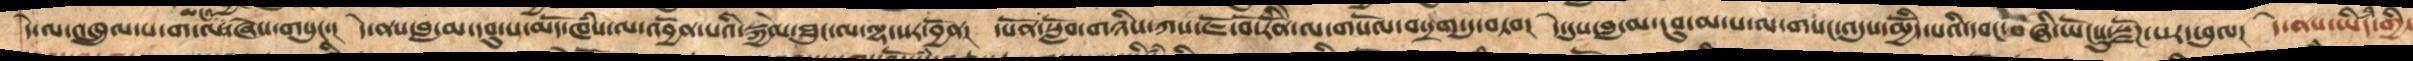དེ་ལ་འཁྲུལ་པ་ག་ལ་ཞེས་གསུང་། དེ་ནས་བླ་མ་དབུ་པ་མདོ་ཁཾས་ལ་འབྱོན་པའི་སྐྱེལ་ཐུང་ལ་ལྷ་སར་བྱོན། དཔོན་སློབ་གཉིས་ཀས་ཇོ་བོ་རིོནེ་ལ་གསོལ་བ་དྲག་དུ་བཏབ། དེ་དུས་བླ་མ་དབུ་མ་པ་ལ་གསང་འདུས་ཆྱེིདཔའི་དབང་བཞི་ཡོངསུ་སྫོཌ་པར་ཕུལ། དེ་ནས་ཡིདཾ་གྱི་
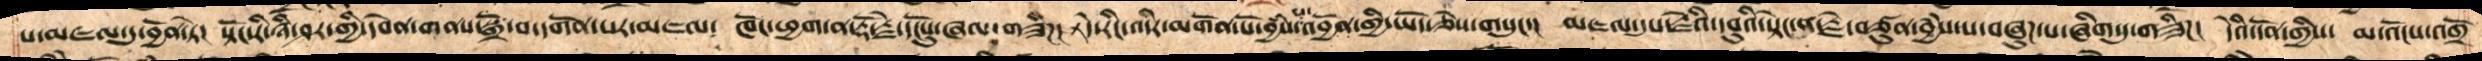པ་མཇལ་དུ་བྱོན་ཏེ། སྟོང་རི་ཉི་ཤར་གྱི་དབེན་གནས་སྒྲོ་བ་དགོན་པར་མཇལ། ཁོང་ཕྱག་ན་རྡོ་རྗེ་དངོསུ་ཞལ་གཟིཌ། དེ་རིང་འདིར་མགོན་པོ་བྱཾས་པ་འབྱོན་གྱི་ཡོད་ཅེས་གསུང་། མཇལ་དུས་རྗེའི་དབུའི་སྟེང་ན་རྗེ་བཙུན་བྱཾས་པ་བཞུཌ་པ་ཞིག་དུ་གཟིཌ། དེའི་དོན་གྱིས། མ་འོངས་འགྲོ་
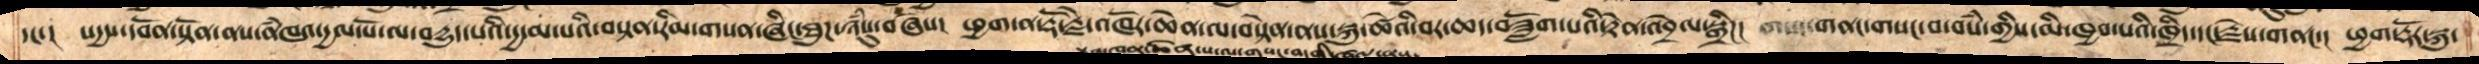དང་། སདྱས་དབོན་སྟོན་ནས་ནཾཁའ་དྱལ་པོ་ལ་བདྱུད་པའི་དྱ་མ་པའི་བསྟན་རིམ་གཉིས་གསན་ཅིང་ཐུཌ་ཉཾསུ་བཞེས། ཕྱག་ན་རྡོ་རྗེ་འཁོར་ཆེན་ལ་བསྟེན་ནས་སྐུ་ཚེའི་བར་ཆད་བཟློག་པའི་རྟེན་འབྲེལ་སྒྲིཌ། གསང་གནང་གསང་བ་བསཾ་གྱིས་མི་ཁྱབ་པའི་ཁྲིད་དང་རྗེས་གནང། ཕྱག་རྡོར་སྐུ་
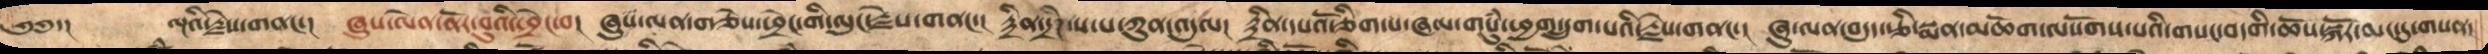༄༅་།     ལྔའི་རྗེས་གནང་།  ཞུས་ལེན་ནོར་བུའི་ཕྲེང་བ།  ཞུས་ལན་གཅེས་ཕྲེང་གི་ལུང་རྗེས་གནང་།  རྟྲྲྲྲྲྲྲྼྲྲིན་དྲེཌ་ས་པ་ཀུན་འདུལ།  རྟྲིན་དཔའོ་ཅིག་པ་ཞལ་གསུཾ་ཕྱག་དྲུག་པའི་རྗེས་གནང་།  ཞུ་ལན་བདུད་རྩི་སྨན་མཆོག་ལསོགས་པའིི་གསང་བདགི་ཆོས་སྐོར་མང་དུ་གསན་
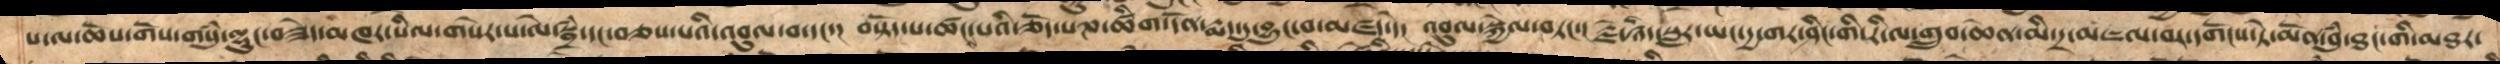པ་ལ་ཆོས་གོས་གསུཾ་ལྷུང་བཟེད་མཁར་སིལ་གསེར་ས་ལེ་སྦྲཾ་དང་བཅས་པའི་འབུལ་བ་དང་།  བསྟོད་པ་ཚང་པའི་ཅོད་པཎ་ཚིག་དོན་རྨད་དུ་བྱུང་པ་མཛད་དེ།  འབུལ་སྐྱེལ་བཏང་།  རྗེ་ཉིད་སླར་ཡང་དྱ་གར་ཤིང་གི་རི་ལ་གྲུབ་ཆེན་མི་དྲ་མཇལ་བར་དགོངས་ཏེ་མོན་བུཾ་ཐང་གི་མཐར་
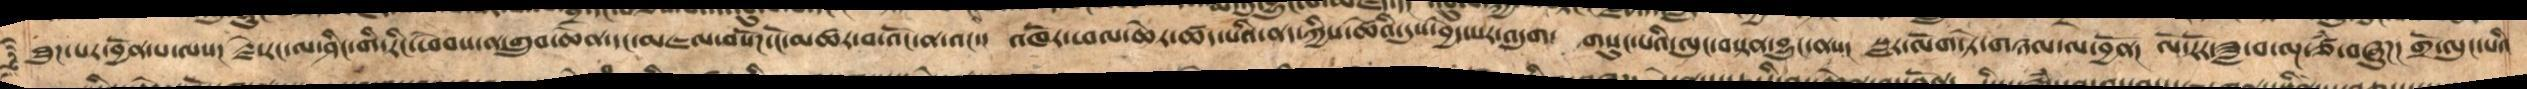ཐུཌ་པར་བྱོན་པ་ལས། རྗེ་རང་ལ་ཤིང་གི་རིར་ཕེབས་ན་གྲུབ་ཆེན་དང་མཇལ་བསོཌ་ངོ་མཚར་བ་འོང་ན་འང་། འཁེར་ཕལ་ཆེར་ཚད་པའི་ནད་ཀྱིས་ཚེའི་དུས་བྱེད་པར་འདུག་ གསུང་པའི་ལུང་བསྟན་བྱུང་ནས། སླར་ལོག་ཏེ་གཉལ་ལ་བྱོན། ལོ་རོར་ཟླ་བ་ལྔ་ཙཾ་བཞུཌ། གྲོ་ལུང་པའི་
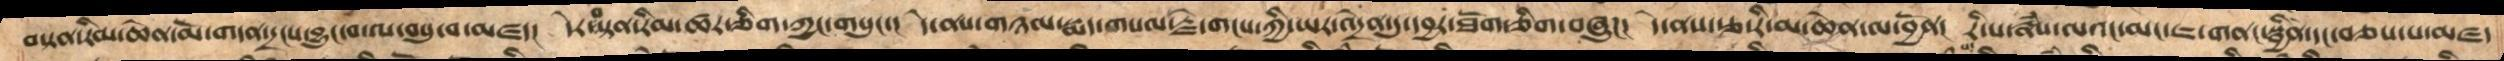བསྟན་རིམ་ཆེན་མོ་གདན་དྲངས་བྱུང་བ་ལ་བསུ་བ་མཛད། དེར་བསྟན་རིམ་ཚར་ཅིག་ཀྱང་གསུང་།  དེ་ནས་གཉལ་སྨད་གསལ་རྗེ་གངས་ཀྱི་ཡར་འདྲེན་དུ་དབྱར་ཐོག་ཅིག་བཞུཌ། དེ་ནས་ཙ་རི་མ་ཆེན་ལ་བྱོན། རི་པ་རྣཾས་ལའ་མང་ཇ་གནང་སྦྱིན་དང་བཅས་པ་མཛད
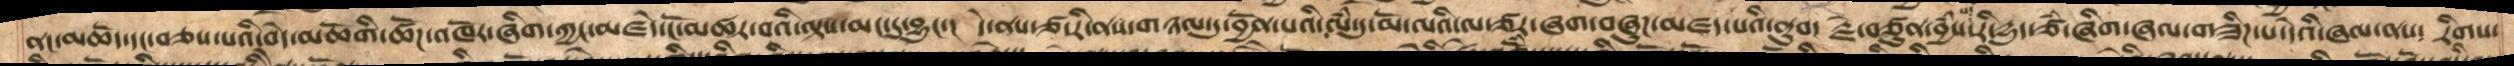ནང་མཆོད་དང་བཅས་པའི་བདེ་མཆོགི་ཚོཌ་འཁོར་ཞིག་ཀྱང་མཛདེ་ངོ་མཚར་བའི་ལྟས་མང་དུ་བྱུང་།  དེ་ནས་ཙ་རི་ནས་གཉལ་དུ་བྱོན་པའི་ལཾ་དུ་མོ་ལའི་ལ་ཙར་ཞག་བཞུཌ་མཛད་པའི་ནུབ།  རྗེ་བཙུན་བྱཾས་པ་རི་དྱུད་ཙཾ་ཞིག་ཞལ་གཟིཌ་པ་དེའི་ཞལ་ནས། རིགས་
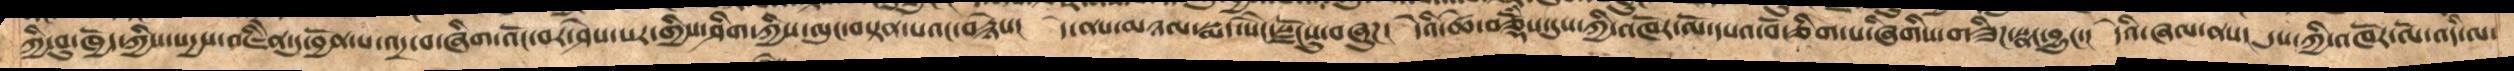ཀྱི་བུ་ཁྱོད་ཀྱིས་སདྱས་འཇིནེ་དུ་བྱོན་པ་འདྲ་བ་ཞིག་འོང་བར་ཤེས་པར་གྱིས་ཤིག་ཀྱིས་ལུང་བསྟན་པའང་བརྙེས།  དེ་ནས་མཉལ་སྨད་སཻང་སྫོངསུ་བཞུཌ།  དེའི་ཚེ་བཅྡོཾས་དུས་ཀྱི་འཁོར་ལོ་དཔའ་བོ་ཅིག་པ་ཞིགིས་གཟིཌ་སྣང་བྱུང་།  དེའི་ཞལ་ནས།  དུས་ཀྱི་འཁོར་ལོ་འདི་ལ་
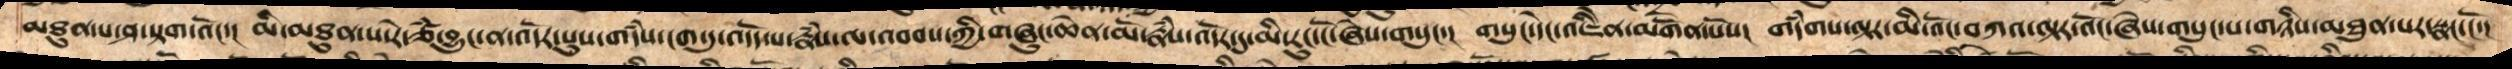མཐུན་པ་ཤ་སྟག་འོང་།  མི་མཐུན་པ་རེ་ཙཾ་བྱུང་ན་འདོར་སུས་གདཾས་ངག་དུ་འདོད་པ་རྣཾས་ལ་འབབས་ཀྱི་གཞུང་ཆེན་མོ་རྣཾས་འདོར་དུ་མི་རུང་ངོ་ཞེས་གསུང་།  གསུང་དེང་འཇིནེ་མགོན་པོས།  གདཾགས་ལྟར་མི་འོང་བཀའ་ལྟར་འོང་ཞེས་གསུང་པ་གཉིས་མཐུན་པར་སྣང་ངོ་།
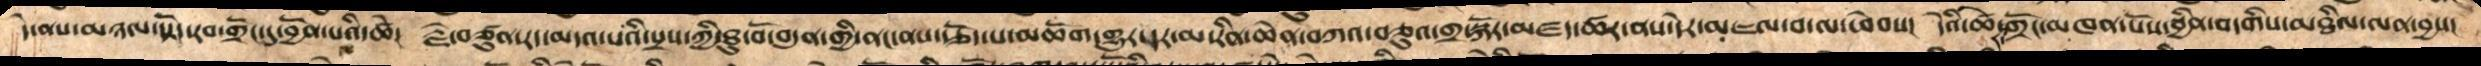དེ་ནས་གཉལ་སྟོད་རབ་གྲོང་དུ་བྱོན་པའི་ཚེ། རྗེ་བཙུན་རད་མདའ་པའི་སྲས་ཀྱི་ཐུ་བོ་བདུན་གྱི་ནང་ནས་རྩོད་པ་མཆོག་གྱུར་དར་མ་རིན་ཆེན་བཀའ་བཅུའ་གྲ་སྐོར་མཛད་ཚར་ནས་དེར་མཇལ་བ་ལ་ཕེབས། དེའི་ཚེ་རི་གྲོང་མཁན་པོས་སྦྲིན་བདགིས་མཐིལ་ལན་བྱས།
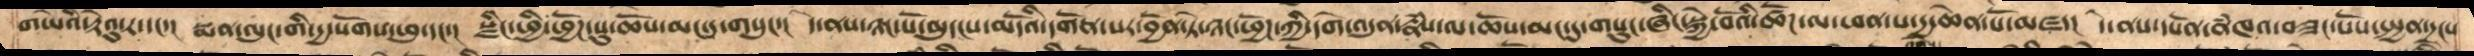གཡེའི་རྟེའུ་ར་དང་།  སྨན་ལུང་གི་དྱ་སོགས་ཕུ་དང་། སྫིང་ཕྱི་ཕྱོོཌ་སུ་ཆོས་མང་དུ་གསུང་།  དེ་ནས་ཉང་པོ་མུདངས་མདོའི་དགོན་པར་བྱོན་ཏེ་ཉང་ཕྱོཌ་ཀྱི་དགེ་འདུན་རྣཾས་ལ་ཆོས་མང་དུ་གསུང་ཞིང་སྐྱེ་བོའི་ཚོཌ་ལ་ཕན་པ་དྱ་ཆེན་པོ་མཛད།  དེ་ནས་དཔོན་ནཾཁའ་བཟང་པོས་སྤྱན་དྲངས
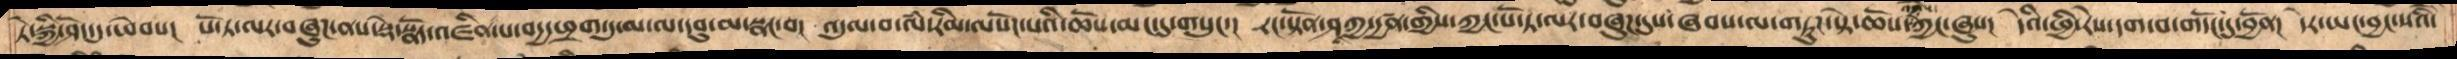དེ་སྐྱེ་ཤོད་དུ་ཕེབས།  པོ་ཏ་ལར་བཞུཌ་ནས་སྡེ་སྣོད་འཛིན་པ་བདྱ་ཕྲག་དུ་མ་ལ་དབུ་མ་སྣང་བ།  འདུལ་བ་ལཾ་རིམ་ལ་སོཌ་པའི་ཆོས་མང་དུ་གསུང་  རང་སྟོན་ཤཱཀྱ་དྱཚན་གྱིས་ཀྱང་པོ་ཏ་ལར་བཞུཌ་དུས་ཞབས་ལ་གཏུཌ་སྟེ་ཆོས་ཀྱང་ཞུས།  དེའི་ཕྱི་རེས་དག་བ་གདོང་དུ་བྱོན།  དེར་ཡང་བྱང་སའི་
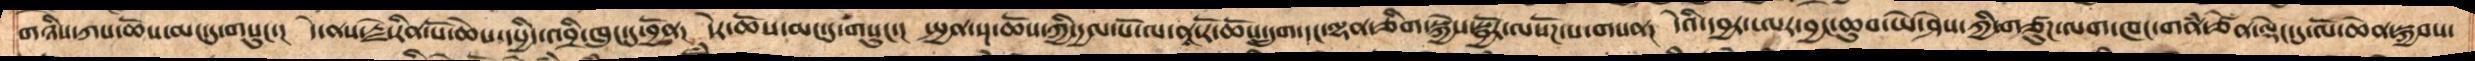གཉིས་ཀས་ཆོས་མང་དུ་གསུང་།  དེ་ནས་རྗེ་རིན་པོ་ཆེས་དཔྱིད་འབྲི་ཁུང་དུ་བྱོན།  དེར་ཆོས་མང་དུ་གསུང།  སྤྱན་སྔ་ཆོས་ཀྱི་དྱལ་པོ་ལ་ནཱ་རོ་ཆོས་དྲུག་དང་ལྷན་ཅིག་སྐྱེས་སྦྱོར་ལསོཌ་པ་གསན།  དེའི་དབྱར་ལར་བྱང་ཆུབ་ཡེ་ཤེས་ཀྱི་གཙུཌ་ལག་ཁང་གནཾ་ཙེན་ལྡེང་དུ་ལོ་ཆེན་སྐྱབས་
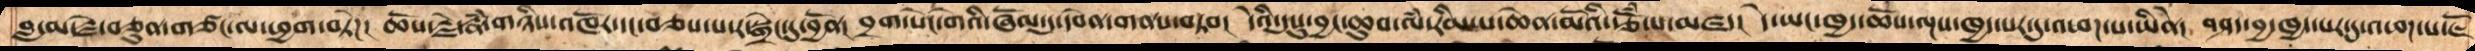བླ་མ་རྗེ་བཙུན་གཙང་ལ་ཕྱག་བཏེཌ།  ཆོས་རྗེ་རྣཾ་གཉིས་འཁོར་དང་བཅས་པ་ར་སྒྲེང་དུ་བྱོན།  བྲག་སེང་གེའི་ཞོལ་དུ་དབེན་གནས་བཏབ།  དེའི་དུསུ་བྱང་ཆུབ་ལཾ་རིམ་པ་ཆེན་མོའི་རྩོཾ་པ་མཛད།  དེ་ཡང་ཁྱད་ཆོས་ལྔས་ཁྱད་པར་དུ་འཕཌ་པ་ཡིནེ།  བཤད་བྱ་ཁྱད་པར་དུ་འཕཌ་པ་ཇོ
